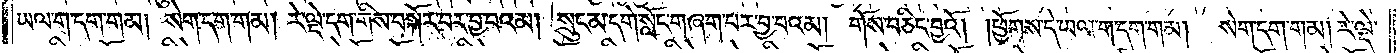ཡལ་ག་དག་གམ། སེག་དག་གམ། རེ་ལྡེ་དག་གིས་བསྐོར་བར་བྱ་བའམ། སྲུང་མ་དགེ་སློང་གཞག་པར་བྱ་བའམ། གོས་བཅིང་བྱའོ། །ཕྱོགས་དེ་ཡལ་ག་དག་གམ། སེག་དག་གམ། རེ་ལྡེ་
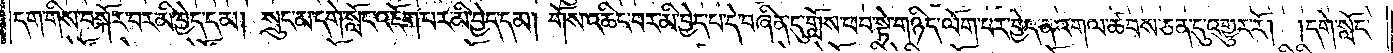དག་གིས་བསྐོར་བར་མི་བྱེད་དམ། སྲུང་མ་དགེ་སློང་འཇོག་པར་མི་བྱེད་དམ། གོས་འཆིང་བར་མི་བྱེད་པ་དེ་བཞིན་དུ་གློས་ཕབ་སྟེ་གཉིད་ལོག་པར་བྱེད་ན་འགལ་ཚབས་ཅན་དུ་འགྱུར་རོ། །དགེ་སློང་
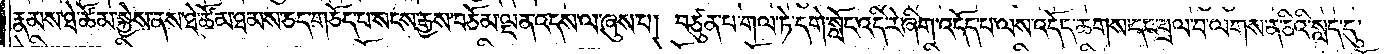རྣམས་ཐེ་ཚོམ་སྐྱེས་ནས་ཐེ་ཚོམ་ཐམས་ཅད་གཅོད་པ་སངས་རྒྱས་བཅོམ་ལྡན་འདས་ལ་ཞུས་པ། བཙུན་པ་གལ་ཏེ་དགེ་སློང་འདི་རེ་ཞིག་འདོད་པ་ལས་འདོད་ཆགས་དང་བྲལ་བ་ལགས་ན་ཅིའི་སླད་དུ་
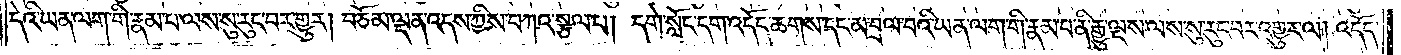དེའི་ཡན་ལག་གི་རྣམ་པ་ལས་སུ་རུང་བར་གྱུར། བཅོམ་ལྡན་འདས་ཀྱིས་བཀའ་སྩལ་པ། དགེ་སློང་དག་འདོད་ཆགས་དང་མ་བྲལ་བའི་ཡན་ལག་གི་རྣམ་པ་ནི་རྒྱུ་ལྔས་ལས་སུ་རུང་བར་འགྱུར་ལ། འདོད་
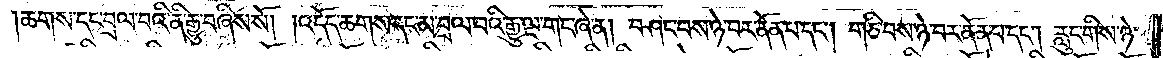།ཆགས་དང་བྲལ་བའི་ནི་རྒྱུ་བཞིས་སོ། །འདོད་ཆགས་དང་མ་བྲལ་བའི་རྒྱུ་ལྔ་གང་ཞེ་ན། བཤང་བས་ཉེ་བར་ནོན་པ་དང༌། གཅི་བས་ཉེ་བར་ནོན་པ་དང༌། རླུང་གིས་ཉེ་
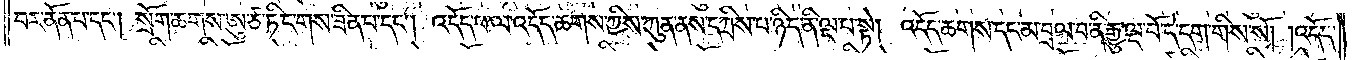བར་ནོན་པ་དང༌། སྲོག་ཆགས་ཨུ་ཙ་ཏིང་གས་ཟིན་པ་དང༌། འདོད་པ་ལ་འདོད་ཆགས་ཀྱིས་ཀུན་ནས་དཀྲིས་པ་ཉིད་ནི་ལྔ་པ་སྟེ། འདོད་ཆགས་དང་མ་བྲལ་བ་ནི་རྒྱུ་ལྔ་པོ་དེ་དག་གིས་སོ། །འདོད་
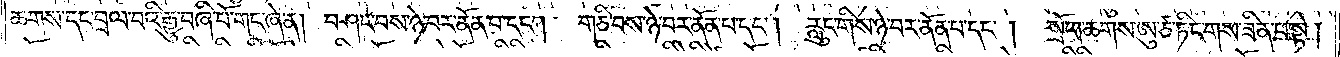ཆགས་དང་བྲལ་བའི་རྒྱུ་བཞི་པོ་གང་ཞེ་ན། བཤང་བས་ཉེ་བར་ནོན་པ་དང༌། གཅི་བས་ཉེ་བར་ནོན་པ་དང༌། རླུང་གིས་ཉེ་བར་ནོན་པ་དང༌།<gap>སྲོག་ཆགས་ཨུ་ཙ་ཏིང་གས་ཟིན་པ་སྟེ།
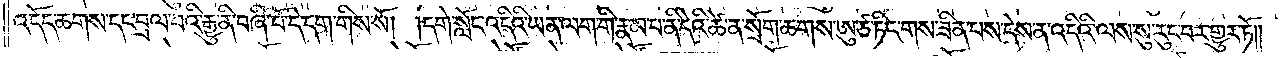འདོད་ཆགས་དང་བྲལ་བའི་རྒྱུ་ནི་བཞི་པོ་དེ་དག་གིས་སོ། །དགེ་སློང་འདིའི་ཡན་ལག་གི་རྣམ་པ་ནི་དེའི་ཚེ་ན་སྲོག་ཆགས་ཨུ་ཙ་ཏིང་གས་ཟིན་པས་དེས་ན་འདིའི་ལས་སུ་རུང་བར་གྱུར་ཏོ༎
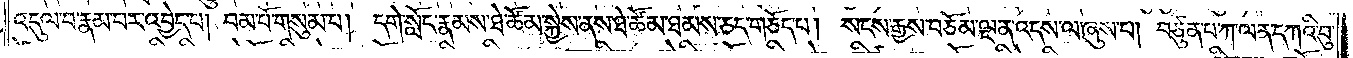འདུལ་བ་རྣམ་པར་འབྱེད་པ། བམ་པོ་གསུམ་པ། དགེ་སློང་རྣམས་ཐེ་ཚོམ་སྐྱེས་ནས་ཐེ་ཚོམ་ཐམས་ཅད་གཅོད་པ། སངས་རྒྱས་བཅོམ་ལྡན་འདས་ལ་ཞུས་པ། བཙུན་པ་ཀ་ལན་དཀའི་བུ་
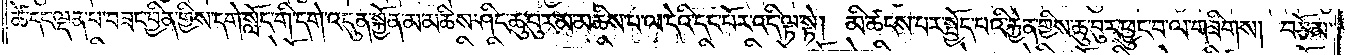ཚེ་དང་ལྡན་པ་བཟང་བྱིན་གྱིས་དགེ་སློང་གི་དགེ་འདུན་སྐྱོན་མ་མཆིས་ཤིང་ཆུ་བུར་མ་མཆིས་པ་ལ་དེའི་དང་པོར་འདི་ལྟ་སྟེ། མི་ཚངས་པར་སྤྱོད་པའི་རྐྱེན་གྱིས་ཆུ་བུར་ཕྱུང་བ་ལ་གཟིགས། བཅོམ་
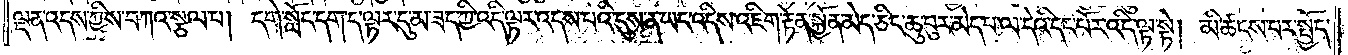ལྡན་འདས་ཀྱིས་བཀའ་སྩལ་པ། དགེ་སློང་དག་ད་ལྟར་དུ་མ་ཟད་ཀྱི་འདི་ལྟར་འདས་པའི་དུས་ན་ཡང་འདིས་འཇིག་རྟེན་སྐྱོན་མེད་ཅིང་ཆུ་བུར་མེད་པ་ལ་དེའི་དང་པོར་འདི་ལྟ་སྟེ། མི་ཚངས་པར་སྤྱོད་
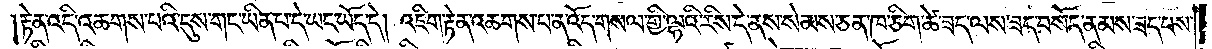རྟེན་འདི་འཆགས་པའི་དུས་གང་ཡིན་པ་དེ་ཡང་ཡོད་དེ། འཇིག་རྟེན་འཆགས་པ་ན་འོད་གསལ་གྱི་ལྷའི་རིས་དེ་ནས་སེམས་ཅན་ཁ་ཅིག་ཚེ་ཟད་ལས་ཟད་བསོད་ནམས་ཟད་པས་
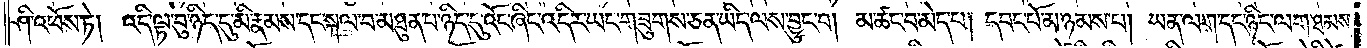ཤི་འཕོས་ཏེ། འདི་ལྟ་བུ་ཉིད་དུ་མི་རྣམས་དང་སྐལ་བ་མཐུན་པ་ཉིད་དུ་འོང་ཞིང་འདིར་ཡང་གཟུགས་ཅན་ཡིད་ལས་བྱུང་བ། མ་ཚང་བ་མེད་པ། དབང་པོ་མ་ཉམས་པ། ཡན་ལག་དང་ཉིང་ལག་ཐམས་
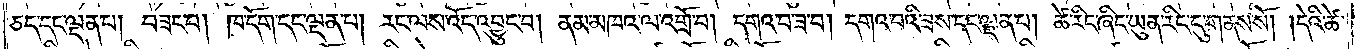ཅད་དང་ལྡན་པ། བཟང་བ། ཁ་དོག་དང་ལྡན་པ། རང་ལས་འོད་འབྱུང་བ། ནམ་མཁའ་ལ་འགྲོ་བ། དགའ་བ་ཟ་བ། དགའ་བའི་ཟས་དང་ལྡན་པ། ཚེ་རིང་ཞིང་ཡུན་རིང་དུ་གནས་སོ། །དེའི་ཚེ་
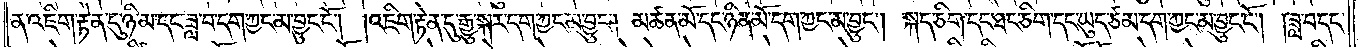ན་འཇིག་རྟེན་དུ་ཉི་མ་དང་ཟླ་བ་དག་ཀྱང་མ་བྱུང་ངོ༌། །འཇིག་རྟེན་དུ་རྒྱུ་སྐར་དག་ཀྱང་མ་བྱུང༌། མཚན་མོ་དང་ཉིན་མོ་དག་ཀྱང་མ་བྱུང༌། སྐད་ཅིག་དང་ཐང་ཅིག་དང་ཡུད་ཙམ་དག་ཀྱང་མ་བྱུང་ངོ༌། །ཟླ་བ་དང༌།
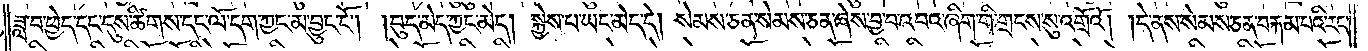ཟླ་བ་ཕྱེད་དང་དུས་ཚིགས་དང་ལོ་དག་ཀྱང་མ་བྱུང་ངོ༌། །བུད་མེད་ཀྱང་མེད། སྐྱེས་པ་ཡང་མེད་དེ། སེམས་ཅན་སེམས་ཅན་ཞེས་བྱ་བ་འབའ་ཞིག་གི་གྲངས་སུ་འགྲོའོ། །དེ་ནས་སེམས་ཅན་བརྐམ་པའི་རང་
